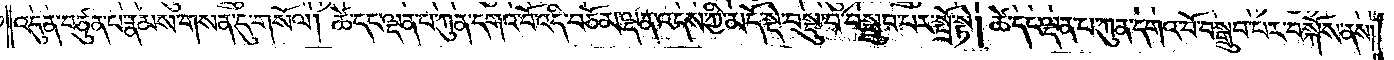འདུན་བཙུན་པ་རྣམས་གསན་དུ་གསོལ། ཚེ་དང་ལྡན་པ་ཀུན་དགའ་བོ་འདི་བཅོམ་ལྡན་འདས་ཀྱི་མདོ་སྡེ་བསྡུ་བ་བསྒྲུབ་པར་སྤྲོ་སྟེ། ཚེ་དང་ལྡན་པ་ཀུན་དགའ་བོ་བསྒྲུབ་པར་བསྐོས་ནས།
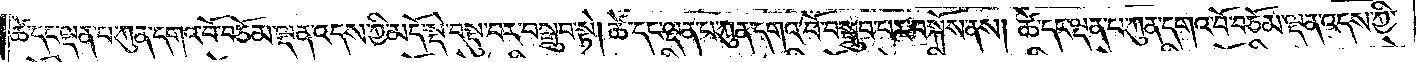ཚེ་དང་ལྡན་པ་ཀུན་དགའ་བོ་བཅོམ་ལྡན་འདས་ཀྱི་མདོ་སྡེ་བསྡུ་བར་བསྒྲུབ་སྟེ། ཚེ་དང་ལྡན་པ་ཀུན་དགའ་བོ་བསྒྲུབ་པར་བསྐོས་ནས། ཚེ་དང་ལྡན་པ་ཀུན་དགའ་བོ་བཅོམ་ལྡན་འདས་ཀྱི་
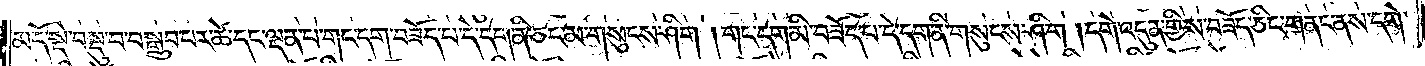མདོ་སྡེ་བསྡུ་བ་བསྒྲུབ་པར་ཚེ་དང་ལྡན་པ་གང་དག་བཟོད་པ་དེ་དག་ནི་ཅང་མ་གསུངས་ཤིག །གང་དག་མི་བཟོད་པ་དེ་དག་ནི་གསུངས་ཤིག །དགེ་འདུན་གྱིས་བཟོད་ཅིང་གནང་ནས་དགེ་
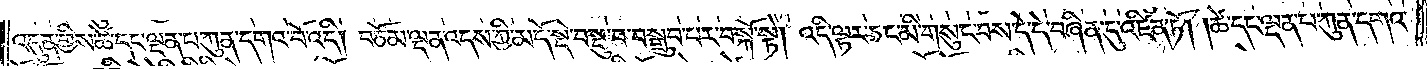འདུན་གྱིས་ཚེ་དང་ལྡན་པ་ཀུན་དགའ་བོ་འདི། བཅོམ་ལྡན་འདས་ཀྱི་མདོ་སྡེ་བསྡུ་བ་བསྒྲུབ་པར་བསྐོ་སྟེ། འདི་ལྟར་ཅང་མི་གསུང་བས་དེ་དེ་བཞིན་དུ་འཛིན་ཏོ། །ཚེ་དང་ལྡན་པ་ཀུན་དགའ་
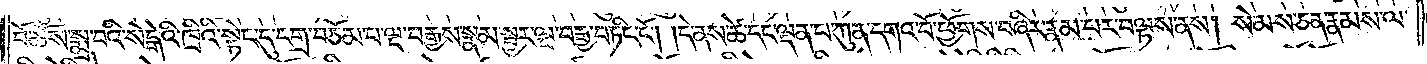པོ་ཆོས་སྨྲ་བའི་སེངྒེའི་ཁྲིའི་སྟེང་དུ་དགྲ་བཅོམ་པ་ལྔ་བརྒྱས་སྣམ་སྦྱར་ལྔ་བརྒྱ་བཏིང་ངོ༌། །དེ་ནས་ཚེ་དང་ལྡན་པ་ཀུན་དགའ་བོ་ཕྱོགས་བཞིར་རྣམ་པར་བལྟས་ནས། སེམས་ཅན་རྣམས་ལ་
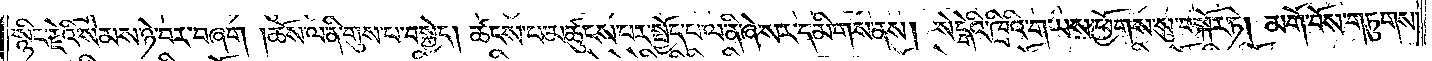སྙིང་རྗེའི་སེམས་ཉེ་བར་བཞག །ཆོས་ལ་ནི་གུས་པ་བསྐྱེད། ཚངས་པ་མཚུངས་པར་སྤྱོད་པ་ལ་ནི་ཞེ་སར་དམིགས་ནས། སེངྒེའི་ཁྲིའི་གཡས་ཕྱོགས་སུ་བསྐོར་ཏེ། མགོ་བོས་གཏུགས་
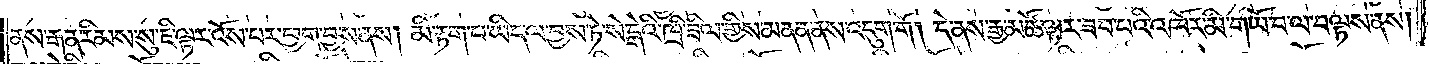ནས་རྒན་རིམས་སུ་ཇི་ལྟར་འོས་པར་ཕྱག་བྱས་ནས། མི་རྟག་པ་ཡིད་ལ་བྱས་ཏེ་སེངྒེའི་ཁྲི་ཟིལ་གྱིས་མནན་ནས་འདུག་གོ། དེ་ནས་རྒྱ་མཚོ་ལྟར་ཟབ་པའི་འཁོར་མི་གཡོ་བ་ལ་བལྟས་ནས།
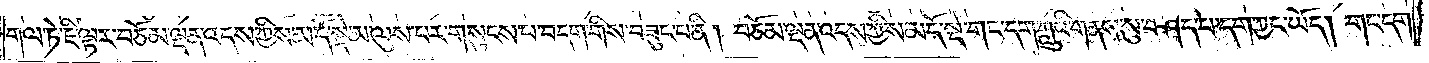གལ་ཏེ་ཇི་ལྟར་བཅོམ་ལྡན་འདས་ཀྱིས་མདོ་སྡེ་མ་ལུས་པར་གསུངས་པ་བདག་གིས་བཟུང་པ་ནི། བཅོམ་ལྡན་འདས་ཀྱིས་མདོ་སྡེ་གང་དག་ཀླུའི་གནས་སུ་བཤད་པ་དག་ཀྱང་ཡོད། གང་དག་
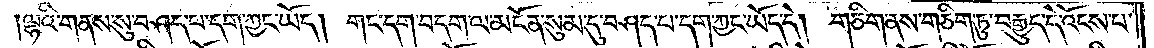།ལྷའི་གནས་སུ་བཤད་པ་དག་ཀྱང་ཡོད། གང་དག་བདག་ལ་མངོན་སུམ་དུ་བཤད་པ་དག་ཀྱང་ཡོད་དེ། གཅིག་ནས་གཅིག་ཏུ་བརྒྱུད་དེ་འོངས་པ་
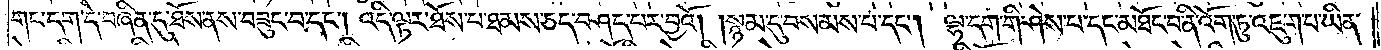གང་དག་དེ་བཞིན་དུ་ཐོས་ནས་བཟུང་བ་དང༌། འདི་ལྟར་ཐོས་པ་ཐམས་ཅད་བཤད་པར་བྱའོ། །སྙམ་དུ་བསམས་པ་དང༌། ལྷ་དག་གི་ཤེས་པ་དང་མཐོང་བ་ནི་འོག་ཏུ་འཇུག་པ་ཡིན་
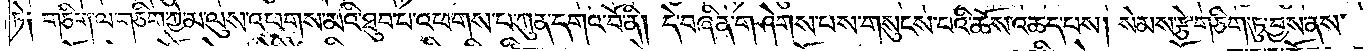ཏེ༑ གཅིག་ལ་གཅིག་ཀྱེ་མ་ལུས་འཕགས་མའི་ཐུབ་པ་འཕགས་པ་ཀུན་དགའ་བོ་ནི། དེ་བཞིན་གཤེགས་པས་གསུངས་པའི་ཆོས་འཆད་པས། སེམས་རྩེ་གཅིག་ཏུ་བྱས་ནས་
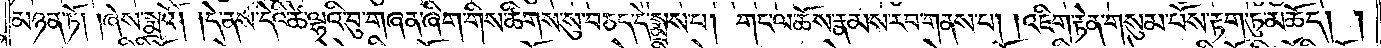མཉན་ཏོ། །ཞེས་སྨྲའོ། །དེ་ནས་དེའི་ཚེ་ལྷའི་བུ་གཞན་ཞིག་གིས་ཚིགས་སུ་བཅད་དེ་སྨྲས་པ། གང་ལ་ཆོས་རྣམས་རབ་གནས་པ། །འཇིག་རྟེན་གསུམ་པོས་རྟག་ཏུ་མཆོད། །
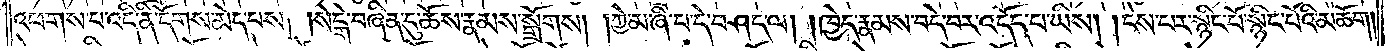འཕགས་པ་འདི་ནི་དོགས་མེད་པས། །སེངྒེ་བཞིན་དུ་ཆོས་རྣམས་སྒྲོགས། །ཀྱེ་མ་ཞི་པ་དེ་བཤད་ལ། །ཁྱེད་རྣམས་བདེ་བར་འདོད་པ་ཡིས། །ངེས་པར་སྙིང་པོ་སྙིང་པོའི་མཆོག།
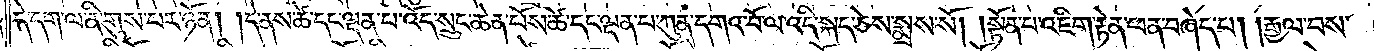དེ་དག་ལ་ནི་གུས་པར་ཉོན། །དེ་ནས་ཚེ་དང་ལྡན་པ་འོད་སྲུང་ཆེན་པོས་ཚེ་དང་ལྡན་པ་ཀུན་དགའ་བོ་ལ་འདི་སྐད་ཅེས་སྨྲས་སོ། །སྟོན་པ་འཇིག་རྟེན་ཕན་བཞེད་པ། །རྒྱལ་བས་
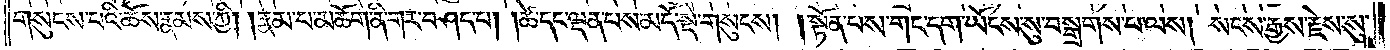གསུངས་པའི་ཆོས་རྣམས་ཀྱི། །རྣམ་པ་མཆོག་ནི་གར་བཤད་པ། །ཚེ་དང་ལྡན་པས་མདོ་སྡེ་གསུངས། །སྟོན་པས་གང་དག་ཡོངས་སུ་བསྒྲགས་པ་ལས། སངས་རྒྱས་རྗེས་སུ་
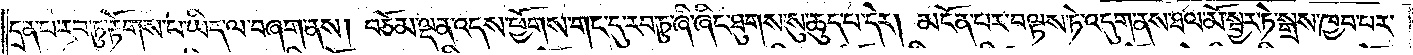དྲན་པ་རབ་ཏུ་རྟོགས་པ་ཡིད་ལ་བཞག་ནས། བཅོམ་ལྡན་འདས་ཕྱོགས་གང་དུ་རབ་ཏུ་ཞི་ཞིང་ཐུགས་སུ་ཆུད་པ་དེར། མངོན་པར་བལྟས་ཏེ་འདུག་ནས་ཐལ་མོ་སྦྱར་ཏེ་སྒྲས་ཁྱབ་པར་
